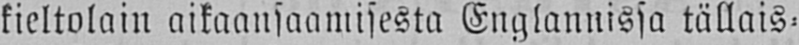kieltolain aikaansaamisesta Englannissa tällais-
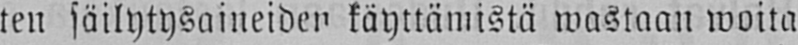ten säilytysaineiden käyttämistä wastaan woita
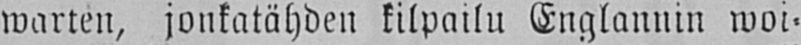warten, jonkatähden kilpailu Englannin woi-
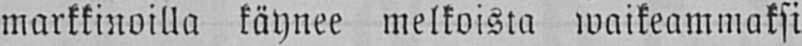markkinoilla käynee melkoista waikeammaksi
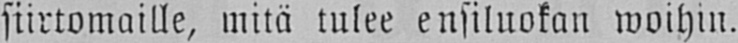siirtomaille, mitä tulee ensiluokan woihin.
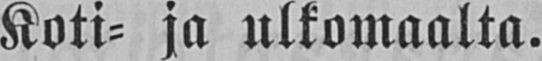Koti- ja ulkomaalta.
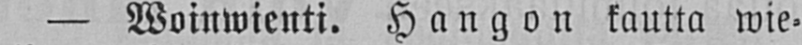— Woinwienti. Hangon kautta wie-
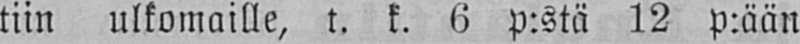tiin ulkomaille, t. k. 6 p:stä 12 p:ään
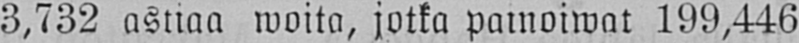3,732 astiaa woita, jotka painoiwat 199,446
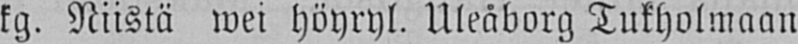kg. Niistä wei höyryl. Uleåborg Tukholmaan
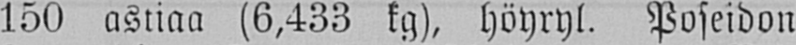150 astiaa (6,433 kg), höyryl. Poseidon
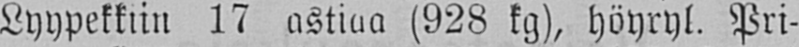Lyypekkiin 17 astiaa (928 kg), höyryl. Pri-
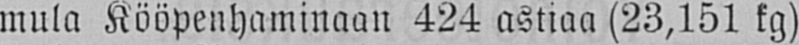mula Kööpenhaminaan 424 astiaa (23,151 kg)
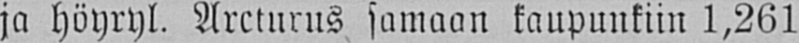ja höyryl. Arcturus samaan kaupunkiin 1,261
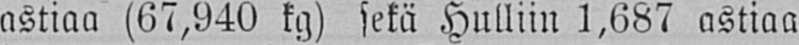astiaa (67,940 kg) sekä Halliin 1,687 astiaa
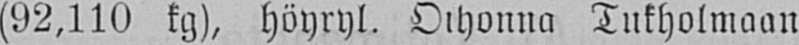(92,110 kg), höyryl. Oihonna Tukholmaan
